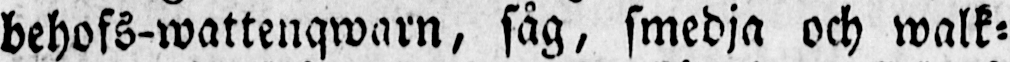behofs-wattenqwarn, såg, smedja och walk-
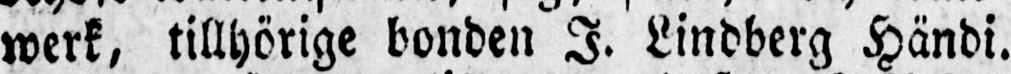werk, tillhörige bonden I. Lindberg Händi.
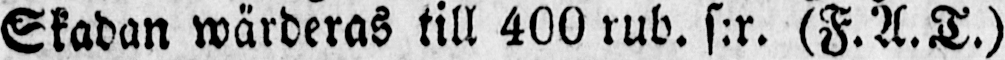Skadan wärderas till 400 rub. s:r. (F.A.T.)
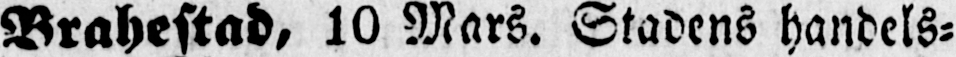Brahestad, 10 Mars. Stadens handels-
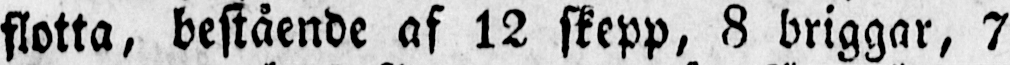flotta, bestående af 12 skepp, 8 briggar, 7
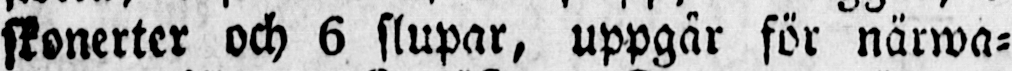skonerter och 6 slupar, uppgår för närwa-
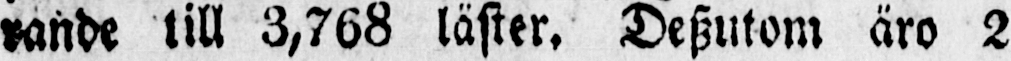rande till 3,768 läster. Deszutom äro 2
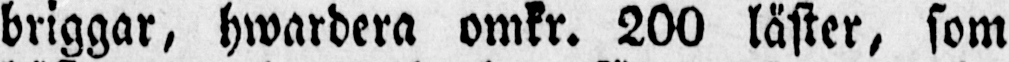briggar, hwardera omkr. 200 läster, som
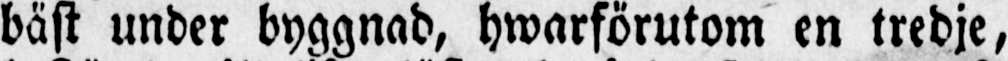bäst under byggnad, hwarförutom en tredje,
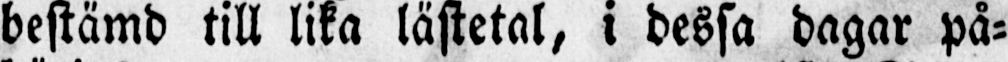bestämd till lika lästetal, i dessa dagar på-
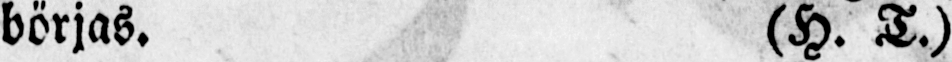börjas. (H. T.)
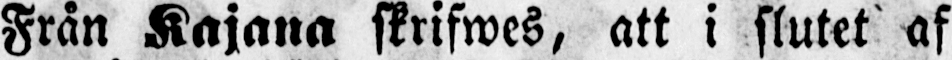Från Kajana skrifwes, att i slutet af
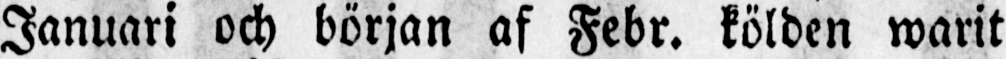Januari och början af Febr. kölden warit
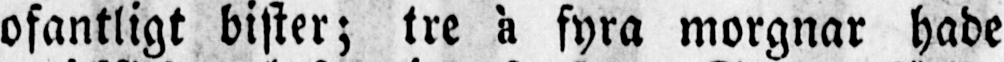ofantligt bister; tre à fyra morgnar hade
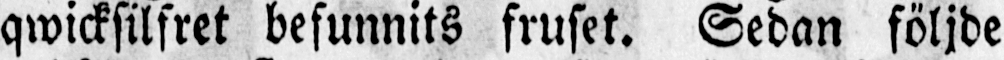qwicksilfret befunnits fruset. Sedan följde
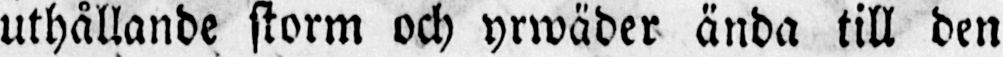uthållande storm och yrwäder ända till den
